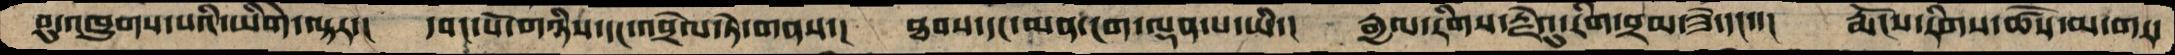བུ་འཁྱུགས་པའི་ཡིགེ་ལྟར་།  དབང་པོ་གཉིས་དང་འབྲེལ་ཏེ་གནས་།  ཐབས་དང་མན་ངག་ལྡན་པ་ཡི་།  རྒྱལ་རིགས་རྗེའུ་རིག་བྲམ་ཟེ་དང་་།  རྨོངས་རིགས་ཚེས་མ་གར་
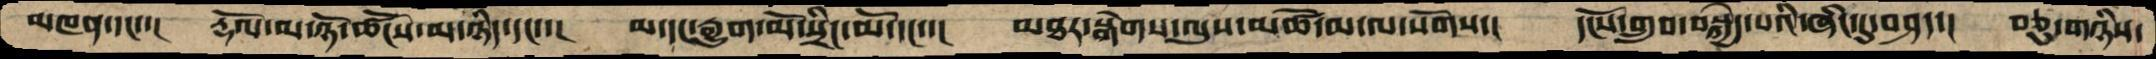མཁན་དང་་།  རྡོལ་མ་ཉོ་ཚོངས་མ་ཉིད་དང་་།  མ་དང་རྒྱུག་མོ་སྲིང་མོ་དང་་།  མཐར་སྒེགས་ལུས་མཚོ་མ་ལ་སོགས་།  དངོས་གྲུབ་བསྐྱེད་པའི་ཞིང་དུ་བཤད་།  བཅུ་གཉིས་
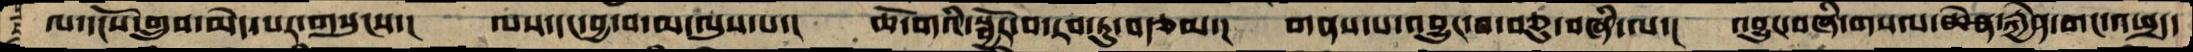ལ་དངོས་གྲུབ་མེད་པར་གསུངས་།  ལས་དང་བྱ་བ་མ་ལུས་པ་།  ཆོ་གའི་སྦྱོར་བ་རབ་ཏུ་བརྩམ་།  གནས་པ་འབྱུང་བ་བཅུ་བཞི་ལ་།  འབྱུང་བཞི་གསལ་ཆེན་རྐྱེན་གང་འཕྲད་
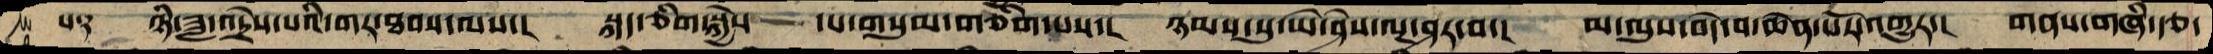ས༑  ཉི་ཟླ་འདྲེས་པའི་གར་ཐབས་ལས་།  སྐད་ཅིག་སྐྱེས་  པ་གསུམ་གཅིག་པས་།  ཉམས་སུ་ཡེ་ཤེས་ལྔ་ཤར་བ་།  མ་ལུས་བདེ་བ་ཆེན་པོར་འགྱུར་།  གནས་གཞི་རྩ་
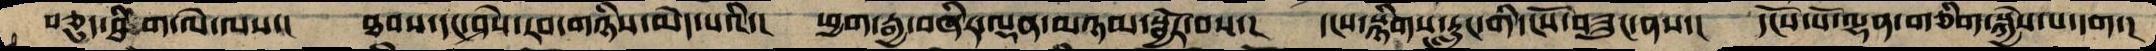བཅུད་ཐིག་ལེ་ལས་།  ཐབས་དང་ཤེས་རབ་གཉིས་མེད་པའི་།  ཕྱག་རྒྱ་བཞི་ལྡན་མཉམ་སྦྱོར་བས་།  དངས་སྙིགས་རླུང་གི་དངོས་གཟུང་ནས་།  དངོས་པོ་ལྷན་ཅིག་སྐྱེས་པ་དག་།
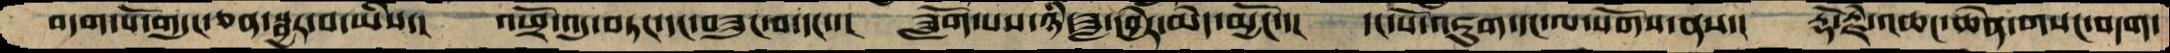བདག་པོ་གདུང་ཅན་སྦྱོར་བ་ཡིས་།  འཕྲོ་འདུ་བཏང་དང་བཟུང་བ་དང་་།  ཟློག་པས་ཉི་ཟླ་དབྱེར་མེད་མྱོང་་།  དང་པོ་འཇུག་དང་ལ་སོགས་ནས་།  རྡོ་རྗེ་འཆང་ཆེན་གསང་བདག།
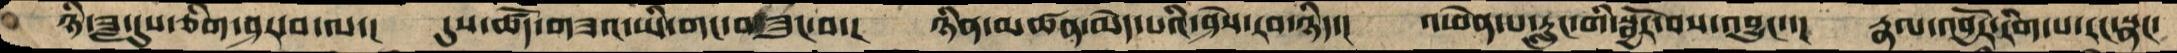ཉི་ཟླ་དུས་གཅིག་ཤར་བ་ལ་།   དུས་ཚོད་གཟའ་ཡི་གང་བཟུང་བ་།  ཉིན་མཚན་མེད་པའི་ཤེས་རབ་ཉིད་།  འཕེན་པ་རླུང་གི་སྦྱོར་བས་འབྱུང་་།  རྣལ་འབྱོར་རིག་པ་རང་སྣང་
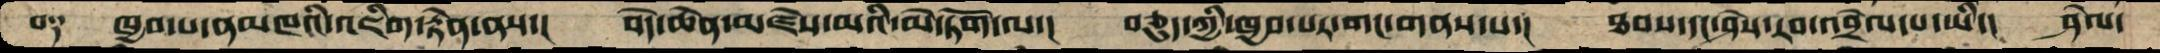པ༑  ཁྱབ་པ་ནམཁའི་འཇིག་རྟེན་ནས་།  བདེ་ཆེན་མཛེས་མའི་མེ་ཏོག་ལ་།  བཅུད་ཀྱི་ཁྱབ་པར་གང་གནས་པ་།  ཐབས་དང་ཤེས་རབ་འབྲེལ་པ་ཡི་།  ཤེལ་
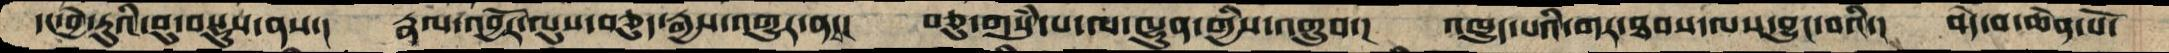དང་བྱེ་རུའི་བུ་བསྡུས་ནས་།  རྣལ་འབྱོར་ལུས་བཅུད་རྒྱས་འགྱུར་ན་།   བཅུ་གསུཾ་པ་ལ་ལྷུན་གྱིས་འགྲུབ་།  འཁྱུད་པའི་གར་ཐབས་ལས་བྱུང་བའི་།  བདེ་བ་ཆེན་པོ་
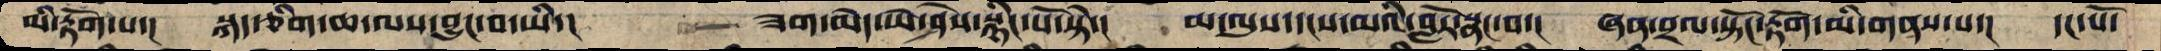མི་རྟོག་པ་།  སྐད་ཅིག་ཆ་ལས་བྱུང་བ་ཡི་།      ཟག་མེད་ཡེ་ཤེས་སྙིང་པོ་སྟེ་།  མ་ལུས་དངས་མའི་བློར་སྣང་བ་།  ཞན་བྲལ་སྟོང་རྟོག་མི་གནས་པ་།   དང་པོ་
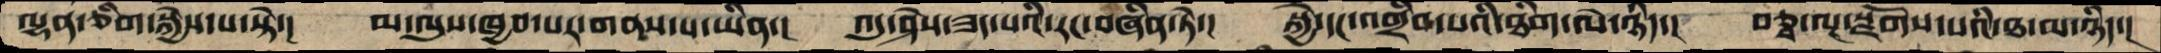ལྷན་ཅིག་སྐྱེས་པ་སྟེ་།  མ་ལུས་ཁྱབ་པར་གནས་པ་ཡིན་།  འདུ་ཤེས་ཟད་པའི་རང་བཞིན་ཏེ་།  སྐྱེ་དང་འགྲིབ་པའི་ཐིག་ལེ་ཉིད་།  བཅྭ་ལྔ་སྫོགས་པའི་ཐ་མ་ཉིད་།
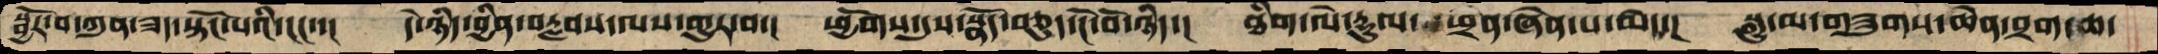སྦྱོར་བ་ཀུན་ཟད་སྟོང་པའི་ངང་་།  དེ་ཉིད་བྱིན་བརླབས་ལས་གྱུར་བ་།  ཕྱོགས་དུས་སྣོད་བཅུད་ངོ་བོ་ཉིད་།  ཐིག་ལེ་རྡུལ་ ཕྲན་ཞེན་པ་མེད་།  སྒྱུ་མ་གཟུགས་ཆེན་བྲག་ཆ་
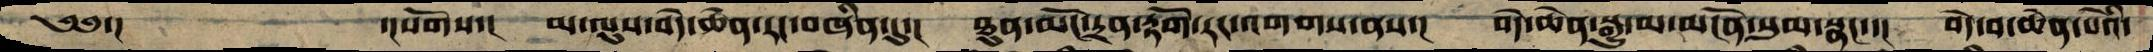༄༅་།     ་།སོགས་།  མ་ལུས་བདེ་ཆེན་རང་བཞིན་དུ་།  ཐུན་མོང་དྲན་རྟོག་རང་འགགས་ནས་།  བདེ་ཆེན་སྒྱུ་མ་མངོན་སུམ་སྣང་་།  བདེ་བ་ཆེན་པོའི་
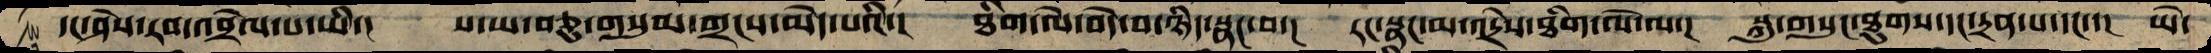དང་ཤེས་རབ་འབྲེལ་པ་ཡི་།  ས་ཡ་བཅུ་གསུམ་གྲངས་མེད་པའི་།  ཐིག་ལེ་བདེ་བ་ཉིད་སྣང་བ་།  རང་སྣང་མ་འདྲེས་ཐིག་ལེ་ལ་།  སྐུ་གསུང་ཐུགས་དང་དྲན་པ་དང་་།  ཡེ་
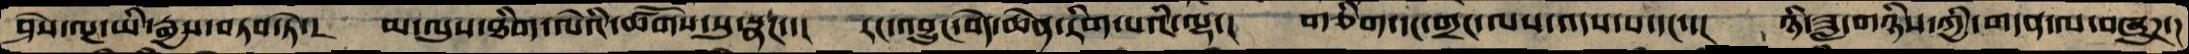ཤེས་ལྔ་ཡི་རྒྱས་བཏབ་ཏེ་།  མ་ལུས་ཐིག་ལེའི་ཚོགས་སུ་སྣང་་།  རང་འབྱུང་བདེ་ཆེན་རིག་པའི་ལྷ་།  གཅིག་དང་གྲང་ལས་འདས་པ་དང་་།  ཉི་ཟླ་གཉིས་ཀྱི་གདན་ལ་བཞུཌ་།
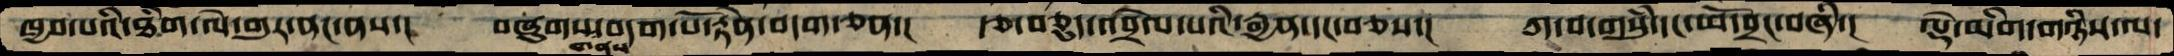ཁྱབ་པའི་ཐིག་ལེ་གུར་ནང་ནས་།  གཞུག་གནས་བདག་པོ་རྟེན་བདག་ཅན་།  རྩ་བཅུད་འབྲེལ་པའི་རྒྱན་དང་བཅས་།  ཀ་བ་གསུཾ་དང་ཕོ་བྲང་བཞི་།  ལྡེ་མིག་གཉིས་ལ་
